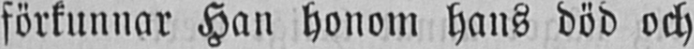förkunnar Han honom hans död och
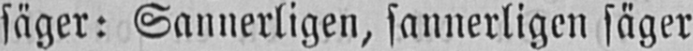säger: Sannerligen, sannerligen säger
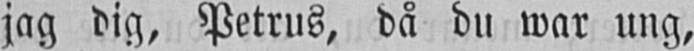jag dig, Petrus, då du war ung,
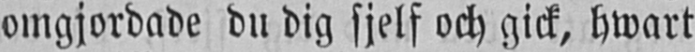omgjordade du dig sjelf och gick, hwart
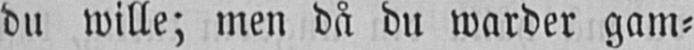du wille; men då du warder gam-
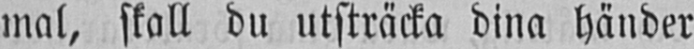mal, skall du utsträcka dina händer
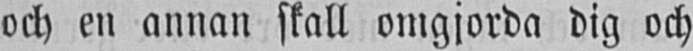och en annan skall omgjorda dig och
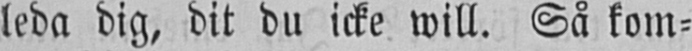leda dig, dit du icke will. Så kom-
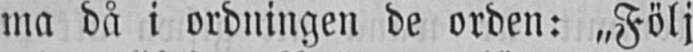ma då i ordningen de orden: „Följ
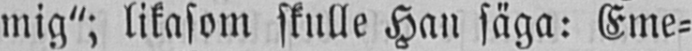mig"; likasom skulle Han säga: Eme-
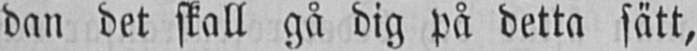dan det skall gå dig på detta sätt,
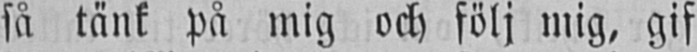så tänk på mig och följ mig, gif
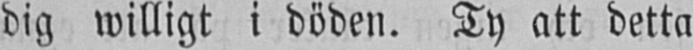dig willigt i döden. Ty att detta
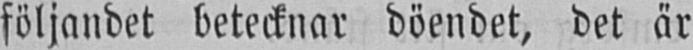följandet betecknar döendet, det är
